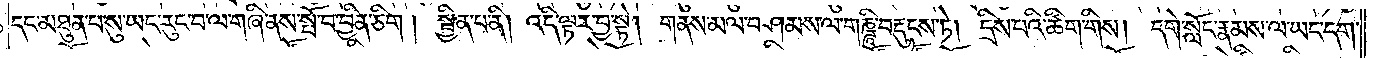དང་མཐུན་པ་སུ་ཡང་རུང་བ་ལ་གཞི་ནས་སྤོ་བ་བྱིན་ཅིག། སྦྱིན་པ་ནི། འདི་ལྟར་བྱ་སྟེ། གནས་མལ་བཤམས་ལ་གཎྜཱི་བརྡུངས་ཏེ། དྲིས་པའི་ཚིག་གིས། དགེ་སློང་རྣམས་ལ་ཡང་དག་
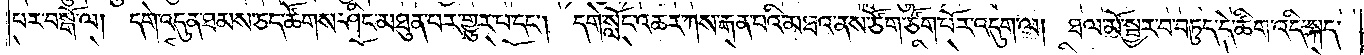པར་བསྒོ་ལ། དགེ་འདུན་ཐམས་ཅད་ཚོགས་ཤིང་མཐུན་པར་གྱུར་པ་དང༌། དགེ་སློང་འཆར་ཀས་རྒན་པའི་མཐའ་ནས་ཙོག་ཙོག་པོར་འདུག་ལ། ཐལ་མོ་སྦྱར་བ་བཏུད་དེ་ཚིག་འདི་སྐད་
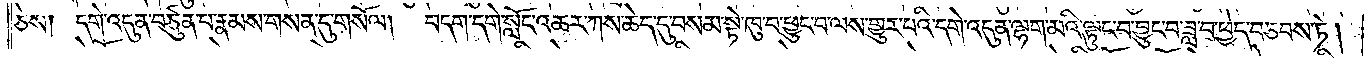ཅེས། དགེ་འདུན་བཙུན་པ་རྣམས་གསན་དུ་གསོལ། བདག་དགེ་སློང་འཆར་ཀས་ཆེད་དུ་བསམ་སྟེ་ཁུ་བ་ཕྱུང་བ་ལས་གྱུར་པའི་དགེ་འདུན་ལྷག་མའི་ལྟུང་བ་བྱུང་བ་ཟླ་བ་ཕྱེད་བཅབས་ཏེ།
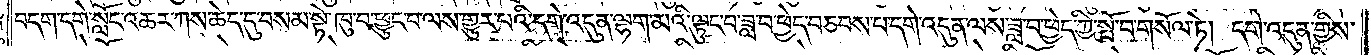བདག་དགེ་སློང་འཆར་ཀས་ཆེད་དུ་བསམ་སྟེ་ཁུ་བ་ཕྱུང་བ་ལས་གྱུར་པའི་དགེ་འདུན་ལྷག་མའི་ལྟུང་བ་ཟླ་བ་ཕྱེད་བཅབས་པ་དགེ་འདུན་ལས་ཟླ་བ་ཕྱེད་ཀྱི་སྤོ་བ་གསོལ་ཏེ། དགེ་འདུན་གྱིས་
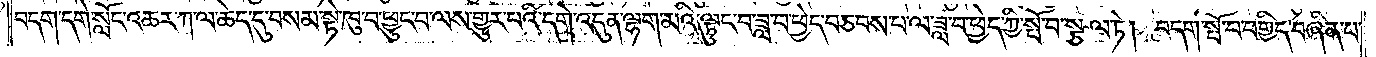བདག་དགེ་སློང་འཆར་ཀ་ལ་ཆེད་དུ་བསམ་སྟེ་ཁུ་བ་ཕྱུང་བ་ལས་གྱུར་པའི་དགེ་འདུན་ལྷག་མའི་ལྟུང་བ་ཟླ་བ་ཕྱེད་བཅབས་པ་ལ་ཟླ་བ་ཕྱེད་ཀྱི་སྤོ་བ་སྩལ་ཏེ། བདག་སྤོ་བ་བགྱིད་བཞིན་པ་
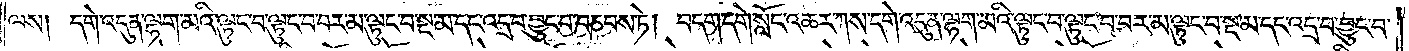ལས། དགེ་འདུན་ལྷག་མའི་ལྟུང་བ་ལྟུང་བ་བར་མ་ལྟུང་བ་སྔ་མ་དང་འདྲ་བ་བྱུང་བ་བཅབས་ཏེ། བདག་དགེ་སློང་འཆར་ཀས་དགེ་འདུན་ལྷག་མའི་ལྟུང་བ་ལྟུང་བ་བར་མ་ལྟུང་བ་སྔ་མ་དང་འདྲ་བ་བྱུང་བ་
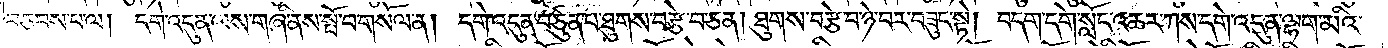བཅབས་པ་ལ། དགེ་འདུན་ལས་གཞི་ནས་སྤོ་བ་གསོལ་ན། དགེ་འདུན་བཙུན་པ་ཐུགས་བརྩེ་བ་ཅན། ཐུགས་བརྩེ་བ་ཉེ་བར་བཟུང་སྟེ། བདག་དགེ་སློང་འཆར་ཀས་དགེ་འདུན་ལྷག་མའི་
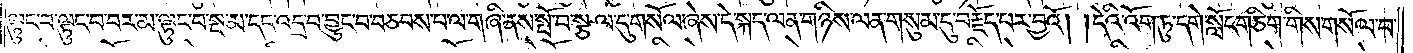ལྟུང་བ་ལྟུང་བ་བར་མ་ལྟུང་བ་སྔ་མ་དང་འདྲ་བ་བྱུང་བ་བཅབས་པ་ལ་གཞི་ནས་སྤོ་བ་སྩལ་དུ་གསོལ་ཞེས་དེ་སྐད་ལན་གཉིས་ལན་གསུམ་དུ་བརྗོད་པར་བྱའོ། །དེའི་འོག་ཏུ་དགེ་སློང་གཅིག་གིས་གསོལ་བ་
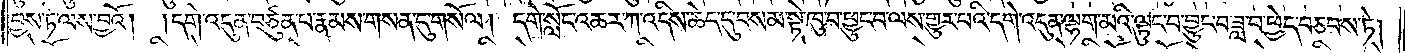བྱས་ཏེ་ལས་བྱའོ། །དགེ་འདུན་བཙུན་པ་རྣམས་གསན་དུ་གསོལ། དགེ་སློང་འཆར་ཀ་འདིས་ཆེད་དུ་བསམ་སྟེ་ཁུ་བ་ཕྱུང་བ་ལས་གྱུར་པའི་དགེ་འདུན་ལྷག་མའི་ལྟུང་བ་བྱུང་བ་ཟླ་བ་ཕྱེད་བཅབས་ཏེ།
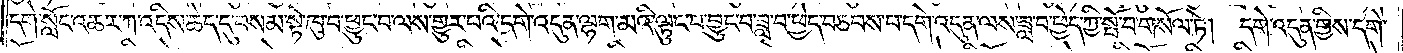དགེ་སློང་འཆར་ཀ་འདིས་ཆེད་དུ་བསམ་སྟེ་ཁུ་བ་ཕྱུང་བ་ལས་གྱུར་པའི་དགེ་འདུན་ལྷག་མའི་ལྟུང་བ་བྱུང་བ་ཟླ་བ་ཕྱེད་བཅབས་པ་དགེ་འདུན་ལས་ཟླ་བ་ཕྱེད་ཀྱི་སྤོ་བ་གསོལ་ཏེ། དགེ་འདུན་གྱིས་དགེ་
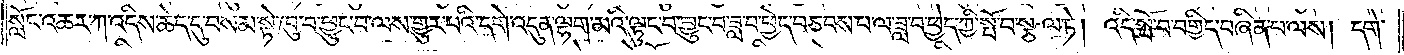སློང་འཆར་ཀ་འདིས་ཆེད་དུ་བསམ་སྟེ་ཁུ་བ་ཕྱུང་བ་ལས་གྱུར་པའི་དགེ་འདུན་ལྷག་མའི་ལྟུང་བ་བྱུང་བ་ཟླ་བ་ཕྱེད་བཅབས་པ་ལ་ཟླ་བ་ཕྱེད་ཀྱི་སྤོ་བ་སྩལ་ཏེ། འདི་སྤོ་བ་བགྱིད་བཞིན་པ་ལས། དགེ་
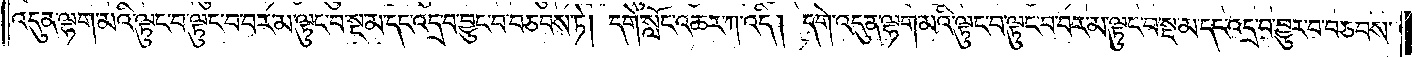འདུན་ལྷག་མའི་ལྟུང་བ་ལྟུང་བ་བར་མ་ལྟུང་བ་སྔ་མ་དང་འདྲ་བ་བྱུང་བ་བཅབས་ཏེ། དགེ་སློང་འཆར་ཀ་འདི། དགེ་འདུན་ལྷག་མའི་ལྟུང་བ་ལྟུང་བ་བར་མ་ལྟུང་བ་སྔ་མ་དང་འདྲ་བ་བྱུར་བ་བཅབས་
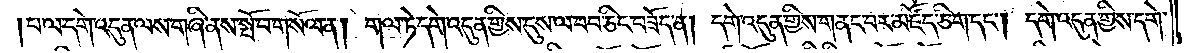པ་ལ་དགེ་འདུན་ལས་གཞི་ནས་སྤོ་བ་གསོལ་ན། གལ་ཏེ་དགེ་འདུན་གྱིས་དུས་ལ་བབ་ཅིང་བཟོད་ན། དགེ་འདུན་གྱིས་གནང་བར་མཛོད་ཅིག་དང༌། དགེ་འདུན་གྱིས་དགེ་
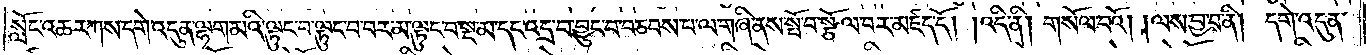སློང་འཆར་ཀས་དགེ་འདུན་ལྷག་མའི་ལྟུང་བ་ལྟུང་བ་བར་མ་ལྟུང་བ་སྔ་མ་དང་འདྲ་པ་བྱུང་བ་བཅབས་པ་ལ་གཞི་ནས་སྤོ་བ་སྩོལ་བར་མཛད་དོ། །འདི་ནི། གསོལ་བའོ། །ལས་བྱ་བ་ནི། དགེ་འདུན་
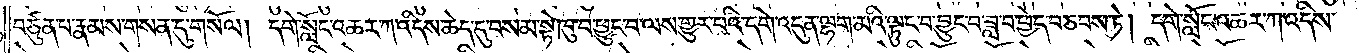བཙུན་པ་རྣམས་གསན་དུ་གསོལ། དགེ་སློང་འཆར་ཀ་འདིས་ཆེད་དུ་བསམ་སྟེ་ཁུ་བ་ཕྱུང་བ་ལས་གྱུར་པའི་དགེ་འདུན་ལྷག་མའི་ལྟུང་བ་བྱུང་བ་ཟླ་བ་ཕྱེད་བཅབས་ཏེ། དགེ་སློང་འཆར་ཀ་འདིས་
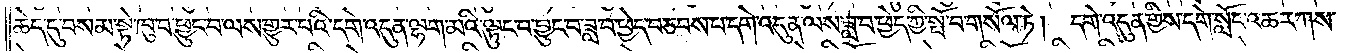ཆེད་དུ་བསམ་སྟེ་ཁུ་བ་ཕྱུང་བ་ལས་གྱུར་པའི་དགེ་འདུན་ལྷག་མའི་ལྟུང་བ་བྱུང་བ་ཟླ་བ་ཕྱེད་བཅབས་པ་དགེ་འདུན་ལས་ཟླ་བ་ཕྱེད་ཀྱི་སྤོ་བ་གསོལ་ཏེ། དགེ་འདུན་གྱིས་དགེ་སློང་འཆར་ཀས་
